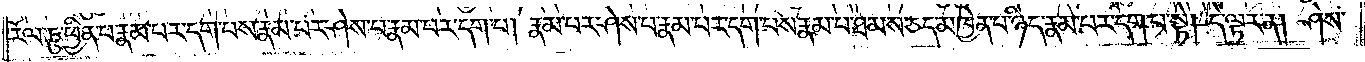རོལ་ཏུ་ཕྱིན་པ་རྣམ་པར་དག་པས་རྣམ་པར་ཤེས་པ་རྣམ་པར་དག་པ། རྣམ་པར་ཤེས་པ་རྣམ་པར་དག་པས་རྣམ་པ་ཐམས་ཅད་མཁྱེན་པ་ཉིད་རྣམ་པར་དག་པ་སྟེ། དེ་ལྟར་ན། ཤེས་
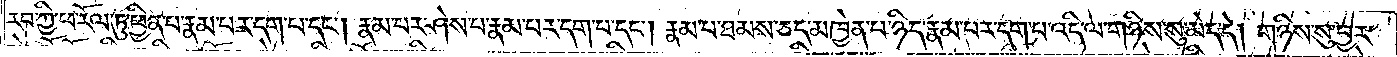རབ་ཀྱི་ཕ་རོལ་ཏུ་ཕྱིན་པ་རྣམ་པར་དག་པ་དང༌། རྣམ་པར་ཤེས་པ་རྣམ་པར་དག་པ་དང༌། རྣམ་པ་ཐམས་ཅད་མཁྱེན་པ་ཉིད་རྣམ་པར་དག་པ་འདི་ལ་གཉིས་སུ་མེད་དེ། གཉིས་སུ་བྱར་
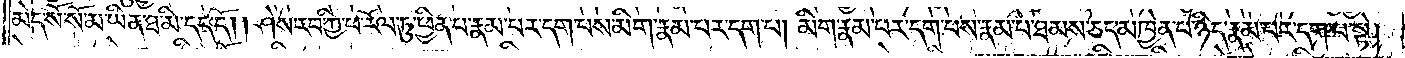མེད་སོ་སོ་མ་ཡིན་ཐ་མི་དད་དོ། །ཤེས་རབ་ཀྱི་ཕ་རོལ་ཏུ་ཕྱིན་པ་རྣམ་པར་དག་པས་མིག་རྣམ་པར་དག་པ། མིག་རྣམ་པར་དག་པས་རྣམ་པ་ཐམས་ཅད་མཁྱེན་པ་ཉིད་རྣམ་པར་དག་པ་སྟེ།
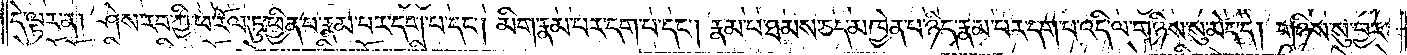དེ་ལྟར་ན། ཤེས་རབ་ཀྱི་ཕ་རོལ་ཏུ་ཕྱིན་པ་རྣམ་པར་དག་པ་དང༌། མིག་རྣམ་པར་དག་པ་དང༌། རྣམ་པ་ཐམས་ཅད་མཁྱེན་པ་ཉིད་རྣམ་པར་དག་པ་འདི་ལ་གཉིས་སུ་མེད་དེ། གཉིས་སུ་བྱར་
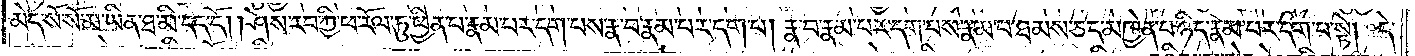མེད་སོ་སོ་མ་ཡིན་ཐ་མི་དད་དོ། །ཤེས་རབ་ཀྱི་ཕ་རོལ་ཏུ་ཕྱིན་པ་རྣམ་པར་དག་པས་རྣ་བ་རྣམ་པར་དག་པ། རྣ་བ་རྣམ་པར་དག་པས་རྣམ་པ་ཐམས་ཅད་མཁྱེན་པ་ཉིད་རྣམ་པར་དག་པ་སྟེ། དེ་
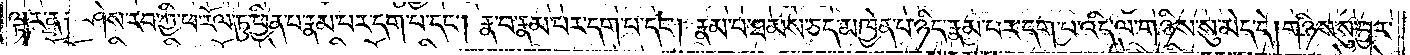ལྟར་ན། ཤེས་རབ་ཀྱི་ཕ་རོལ་ཏུ་ཕྱིན་པ་རྣམ་པར་དག་པ་དང༌། རྣ་བ་རྣམ་པར་དག་པ་དང༌། རྣམ་པ་ཐམས་ཅད་མཁྱེན་པ་ཉིད་རྣམ་པར་དག་པ་འདི་ལ་གཉིས་སུ་མེད་དེ། གཉིས་སུ་བྱར་
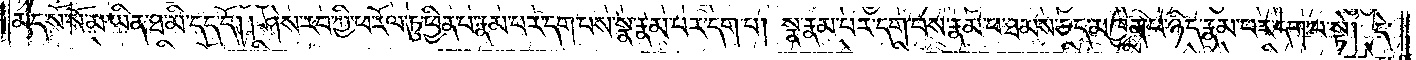མེད་སོ་སོ་མ་ཡིན་ཐ་མི་དད་དོ། ཤེས་རབ་ཀྱི་ཕ་རོལ་ཏུ་ཕྱིན་པ་རྣམ་པར་དག་པས་སྣ་རྣམ་པར་དག་པ། སྣ་རྣམ་པར་དག་པས་རྣམ་པ་ཐམས་ཅད་མཁྱེན་པ་ཉིད་རྣམ་པར་དག་པ་སྟེ། དེ་
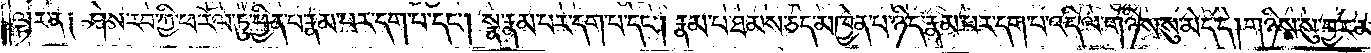ལྟར་ན། ཤེས་རབ་ཀྱི་ཕ་རོལ་ཏུ་ཕྱིན་པ་རྣམ་པར་དག་པ་དང༌། སྣ་རྣམ་པར་དག་པ་དང༌། རྣམ་པ་ཐམས་ཅད་མཁྱེན་པ་ཉིད་རྣམ་པར་དག་པ་འདི་ལ་གཉིས་སུ་མེད་དེ། གཉིས་སུ་བྱར་མེ
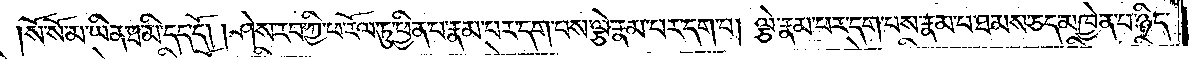སོ་སོ་མ་ཡིན་ཐ་མི་དད་དོ། །ཤེས་རབ་ཀྱི་ཕ་རོལ་ཏུ་ཕྱིན་པ་རྣམ་པར་དག་པས་ལྕེ་རྣམ་པར་དག་པ། ལྕེ་རྣམ་པར་དག་པས་རྣམ་པ་ཐམས་ཅད་མཁྱེན་པ་ཉིད་
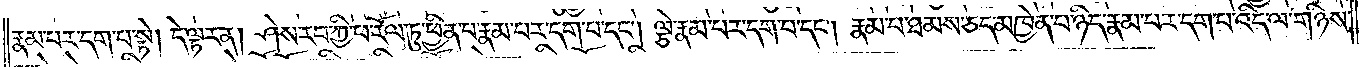རྣམ་པར་དག་པ་སྟེ། དེ་ལྟར་ན། ཤེས་རབ་ཀྱི་ཕ་རོལ་ཏུ་ཕྱིན་པ་རྣམ་པར་དག་པ་དང༌། ལྕེ་རྣམ་པར་དག་པ་དང༌། རྣམ་པ་ཐམས་ཅད་མཁྱེན་པ་ཉིད་རྣམ་པར་དག་པ་འདི་ལ་གཉིས་
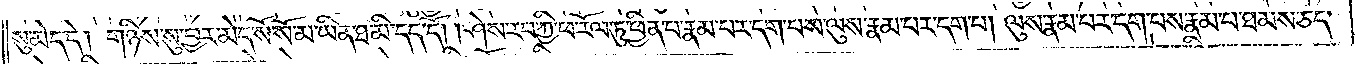སུ་མེད་དེ། གཉིས་སུ་བྱར་མེད་སོ་སོ་མ་ཡིན་ཐ་མི་དད་དོ། །ཤེས་རབ་ཀྱི་ཕ་རོལ་ཏུ་ཕྱིན་པ་རྣམ་པར་དག་པས་ལུས་རྣམ་པར་དག་པ། ལུས་རྣམ་པར་དག་པས་རྣམ་པ་ཐམས་ཅད་
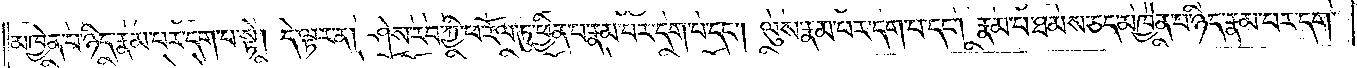མཁྱེན་པ་ཉིད་རྣམ་པར་དག་པ་སྟེ། དེ་ལྟར་ན། ཤེས་རབ་ཀྱི་ཕ་རོལ་ཏུ་ཕྱིན་པ་རྣམ་པར་དག་པ་དང༌། ལུས་རྣམ་པར་དག་པ་དང༌། རྣམ་པ་ཐམས་ཅད་མཁྱེན་པ་ཉིད་རྣམ་པར་དག་
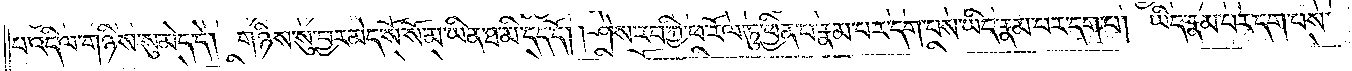པ་འདི་ལ་གཉིས་སུ་མེད་དེ། གཉིས་སུ་བྱར་མེད་སོ་སོ་མ་ཡིན་ཐ་མི་དད་དོ། །ཤེས་རབ་ཀྱི་ཕ་རོལ་ཏུ་ཕྱིན་པ་རྣམ་པར་དག་པས་ཡིད་རྣམ་པར་དག་པ། ཡིད་རྣམ་པར་དག་པས་
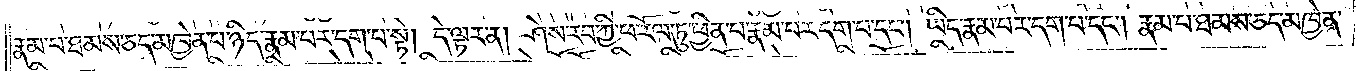རྣམ་པ་ཐམས་ཅད་མཁྱེན་པ་ཉིད་རྣམ་པར་དག་པ་སྟེ། དེ་ལྟར་ན། ཤེས་རབ་ཀྱི་ཕ་རོལ་ཏུ་ཕྱིན་པ་རྣམ་པར་དག་པ་དང༌། ཡིད་རྣམ་པར་དག་པ་དང༌། རྣམ་པ་ཐམས་ཅད་མཁྱེན་
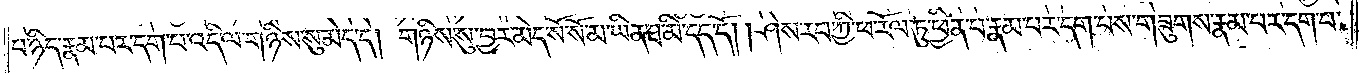པ་ཉིད་རྣམ་པར་དག་པ་འདི་ལ་གཉིས་སུ་མེད་དེ། གཉིས་སུ་བྱར་མེད་སོ་སོ་མ་ཡིན་ཐ་མི་དད་དོ། །ཤེས་རབ་ཀྱི་ཕ་རོལ་ཏུ་ཕྱིན་པ་རྣམ་པར་དག་པས་གཟུགས་རྣམ་པར་དག་པ།
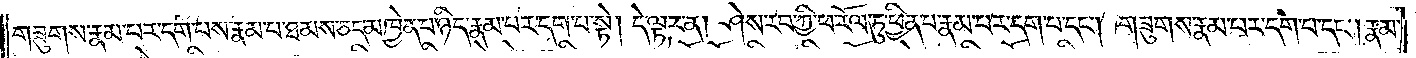གཟུགས་རྣམ་པར་དག་པས་རྣམ་པ་ཐམས་ཅད་མཁྱེན་པ་ཉིད་རྣམ་པར་དག་པ་སྟེ། དེ་ལྟར་ན། ཤེས་རབ་ཀྱི་ཕ་རོལ་ཏུ་ཕྱིན་པ་རྣམ་པར་དག་པ་དང༌། གཟུགས་རྣམ་པར་དག་པ་དང༌། རྣམ་
